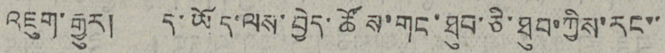འཇུག་རྒྱུར།  ད་ཡོད་ལས་བྱེད་ཚོས་གང་ཐུབ་ཅི་ཐུབ་ཀྱིས་རང་་
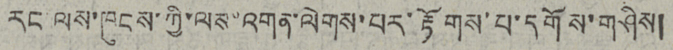རང་ལས་ཁུངས་ཀྱི་ལས་འགན་ལེགས་པར་རྟོགས་པ་དགོས་གཤིས།
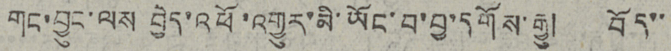གང་བྱུང་ལས་བྱེད་འཕོ་འགྱུར་མི་ཡོང་བ་བྱ་དགོས་རྒྱུ།  བོད་་
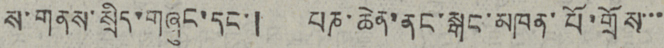ས་གནས་སྲིད་གཞུང་དང་། པཎ་ཆེན་ནང་སྒང་མཁན་པོ་གྲོས་་་
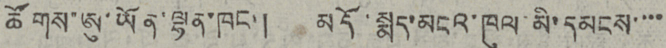ཚོགས་ཨུ་ཡོན་ལྷན་ཁང་། མདོ་སྨད་མངའ་ཁུལ་མི་དམངས་་་་
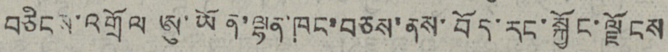བཅིངས་འགྲོལ ཨུ་ཡོན་ལྷན་ཁང་བཅས་ནས་བོད་རང་སྐྱོང་ལྗོངས་
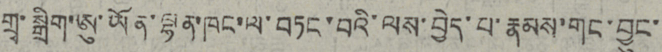གྲྭ་སྒྲིག་ཨུ་ཡོན་ལྷན་ཁང་ལ་བཏང་བའི་ལས་བྱེད་པ་རྣམས་གང་བྱུང་།
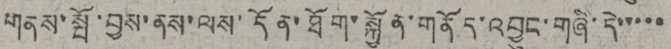གནས་སྤོ་བྱས་ནས་ལས་དོན་ཐོག་སྐྱོན་གནོད་འབྱུང་གཞི་དེ་་་་་་
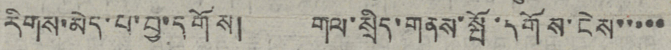རིགས་མེད་པ་བྱ་དགོས། གལ་སྲིད་གནས་སྤོ་དགོས་ངེས་་་་་་
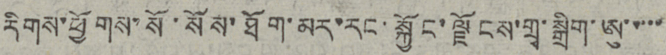རིགས་ཕྱོགས་སོ་སོས་ཐོག་མར་རང་སྐྱོང་ལྗོངས་གྲྭ་སྒྲིག་ཨུ་་་་་་
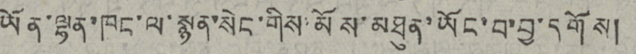ཡོན་ལྷན་ཁང་ལ་སྙན་སེང་གིས་མོས་མཐུན་ཡོང་བ་བྱ་དགོས།
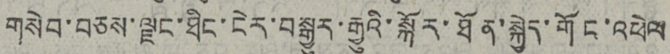གསེབ་བཅས་ལྗང་ཐིང་ངེར་བསྒྱུར་རྒྱུའི་སྐོར་ཐོན་སྐྱེད་གོང་འཕེལ
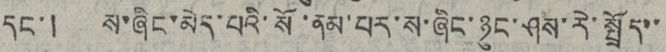དང་། ས་ཞིང་མེད་པའི་སོ་ནམ་པར་ས་ཞིང་ཉུང་ཤས་རེ་སྤྲོད་་་
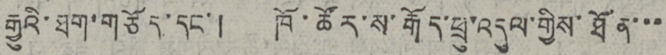རྒྱུའི་ཐག་གཅོད་དང་། ཁོ་ཚོར་ས་རྒོད་ཕྲུ་འདུལ་གྱིས་ཐོན་་་་
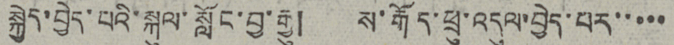སྐྱེད་བྱེད་པའི་སྐུལ་སློང་བྱ་རྒྱུ།   ས་རྒོད་ཕྲུ་འདུལ་བྱེད་པར་་་་་
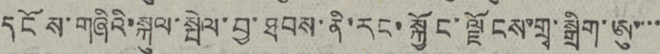དངོས་གཞིའི་སྐུལ་སྤེལ་བྱ་ཐབས་ནི་རང་སྐྱོང་ལྗོངས་གྲྭ་སྒྲིག་ཨུ་་་་་
